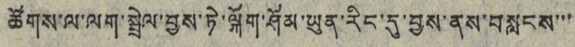ཚོགས་ལ་ལག་སྦྲེལ་བྱས་ཏེ་ལྐོག་ཤོམ་ཡུན་རིང་དུ་བྱས་ནས་བསླངས་་་
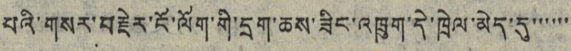པའི་གསར་བརྗེར་ངོ་ལོག་གི་དྲག་ཆས་ཟིང་འཁྲུག་དེ་ཁྲེལ་མེད་དུ་་་་་་་
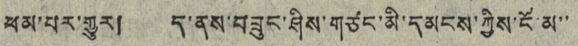ཕམ་པར་གྱུར། ད་ནས་བཟུང་ཤིས་གཙང་མི་དམངས་ཀྱིས་ངོ་མ་་
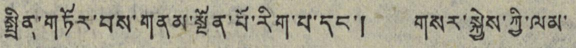སྤྲིན་གཏོར་བས་གནམ་སྔོན་པོ་རིག་པ་དང་། གསར་སྐྱེས་ཀྱི་ལམ་
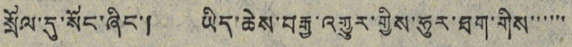སྲོལ་དུ་སོང་ཞིང་། ཡིད་ཆེས་བརྒྱ་འགྱུར་གྱིས་ཧུར་ཐག་གིས་་་་་་
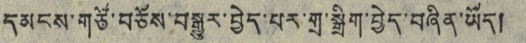དམངས་གཙོ་བཅོས་བསྒྱུར་བྱེད་པར་གྲ་སྒྲིག་བྱེད་བཞིན་ཡོད།
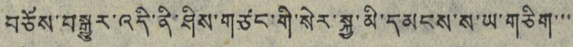བཅོས་བསྒྱུར་འདི་ནི་ཤིས་གཙང་གི་སེར་སྐྱ་མི་དམངས་ས་ཡ་གཅིག་་་
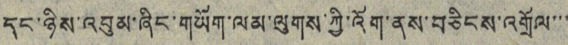དང་ཉིས་འབུམ་ཞིང་གཡོག་ལམ་ལུགས་ཀྱི་འོག་ནས་བཅིངས་འགྲོལ་་་
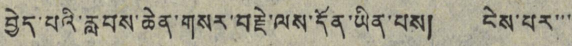བྱེད་པའི་རླབས་ཆེན་གསར་བརྗེ་ལས་དོན་ཡིན་པས། ངེས་པར་་་
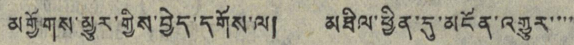མགྱོགས་མྱུར་གྱིས་བྱེད་དགོས་ལ། མཐིལ་ཕྱིན་དུ་མངོན་འགྱུར་་་་
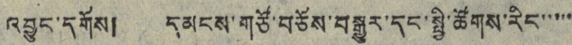འབྱུང་དགོས། དམངས་གཙོ་བཅོས་བསྒྱུར་དང་སྤྱི་ཚོགས་རིང་་་་་
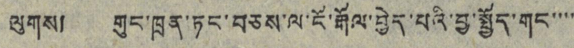ལུགས། གུང་ཁྲན་ཏང་བཅས་ལ་ངོ་རྒོལ་བྱེད་པའི་བྱ་སྤྱོད་གང་་་་
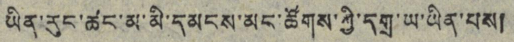ཡིན་རུང་ཚང་མ་མི་དམངས་མང་ཚོགས་ཀྱི་དགྲ་ཡ་ཡིན་པས།
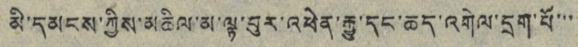མི་དམངས་ཀྱིས་མཆིལ་མ་ལྟ་བུར་འཕེན་རྒྱུ་དང་ཆད་འགེལ་དྲག་པོ་་་
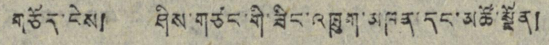གཅོད་ངེས། ཤིས་གཙང་གི་ཟིང་འཁྲུག་མཁན་དང་མཚོ་སྔོན།
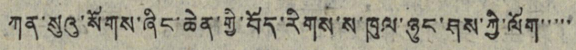ཀན་སུའུ་སོགས་ཞིང་ཆེན་གྱི་བོད་རིགས་ས་ཁུལ་ཉུང་ཤས་ཀྱི་ལོག་་་་་
